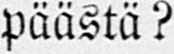päästä?
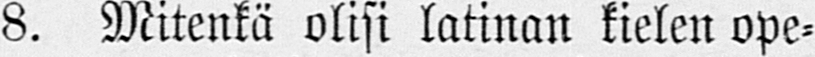8. Mitenkä olisi latinan kielen ope-
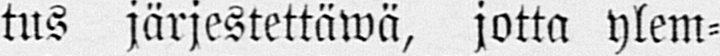tus järjestettäwä, jotta ylem-
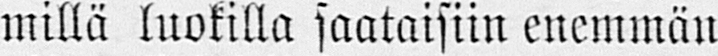millä luokilla saataisiin enemmän
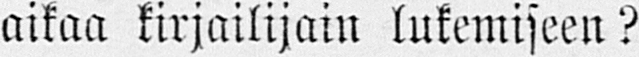aikaa kirjailijain lukemiseen?
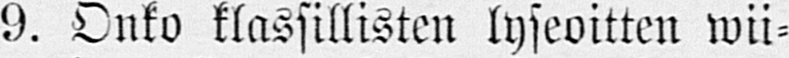9. Onko klassillisten lyseoitten wii-
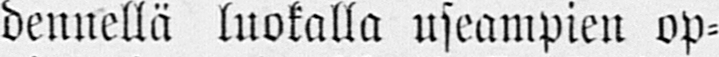dennellä luokalla useampien op-
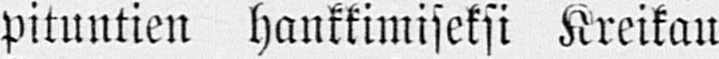pituntien hankkimiseksi Kreikau
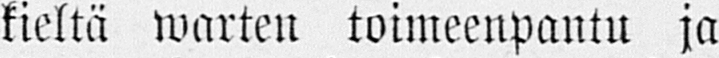kieltä warten toimeenpantu ja
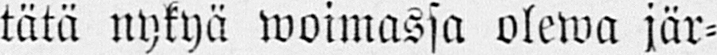tätä nykyä woimassa olewa jär-
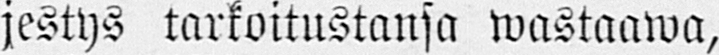jestys tarkoitustansa wastaawa,
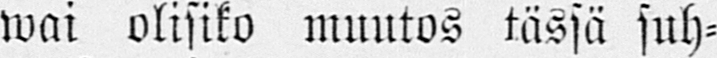wai olisiko muutos tässä suh-
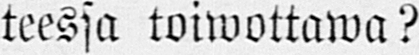teessa toiwottawa?
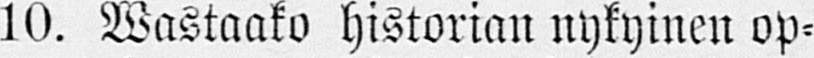10. Wastaako historian nykyinen op-
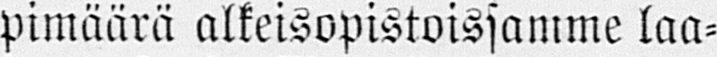pimäärä alkeisopistoissamme laa-
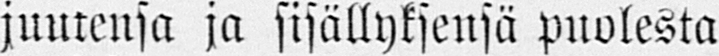juutensa ja sisällyksensä puolesta
